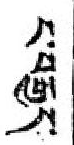ང་བརྒྱད་
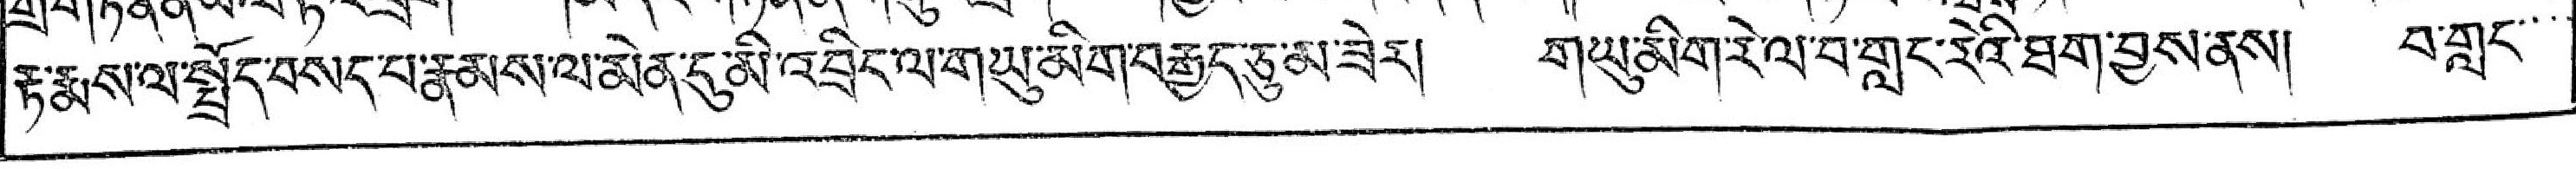རྟ་རྨས་ལ་སྤྲོད་བསད་པ་རྣམས་ལ་མེན་དུ་མི་འབྲིང་ལ་གཡུ་མིག་བརྒྱད་ཅུ་མ་ཟེར། གཡུ་མིག་རེ་ལ་བ་གླང་རེའི་ཐག་བྱས་ནས། བ་གླང་་་་
